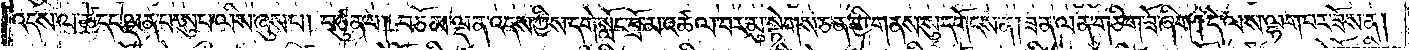འདས་ལ་ཚེ་དང་ལྡན་པ་ཨུ་པ་ལིས་ཞུས་པ། བཙུན་པ། བཅོམ་ལྡན་འདས་ཀྱིས་དགེ་སློང་བྲོ་མ་འཚལ་བར་མུ་སྟེགས་ཅན་གྱི་གནས་སུ་དགོངས་ན། ཟན་ལན་གཅིག་ཟོ་ཞིག །དེ་ལས་ལྷག་པར་ཟོས་ན།
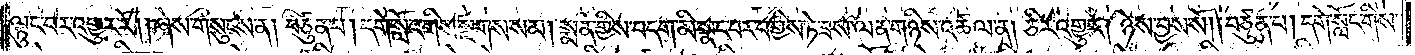ལྟུང་བར་འགྱུར་རོ། །ཞེས་གསུངས་ན། བཙུན་པ། དགེ་སློང་གིས་སྔགས་སམ། སྨན་གྱིས་བདག་མི་སྣང་བར་བགྱིས་ཏེ་ཟས་ལན་གཉིས་འཚལ་ན། ཅིར་འགྱུར། ཉེས་བྱས་སོ། །བཙུན་པ། དགེ་སློང་གིས་
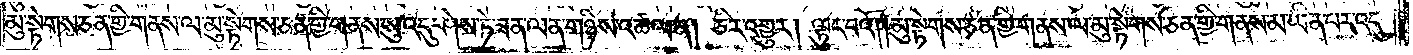མུ་སྟེགས་ཅན་གྱི་གནས་ལ་མུ་སྟེགས་ཅན་གྱི་གནས་སུ་འདུ་ཤེས་ཏེ་ཟན་ལན་གཉིས་འཚལ་ན། ཅིར་འགྱུར། ལྟུང་བའོ། །མུ་སྟེགས་ཅན་གྱི་གནས་ལ་མུ་སྟེགས་ཅན་གྱི་གནས་མ་ཡིན་པར་འདུ་
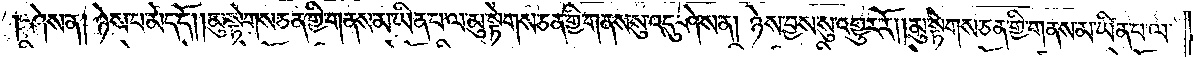།ཤེས་ན། ཉེས་པ་མེད་དོ། །མུ་སྟེགས་ཅན་གྱི་གནས་མ་ཡིན་པ་ལ་མུ་སྟེགས་ཅན་གྱི་གནས་སུ་འདུ་ཤེས་ན། ཉེས་བྱས་སུ་འགྱུར་རོ། །མུ་སྟེགས་ཅན་གྱི་གནས་མ་ཡིན་པ་ལ་
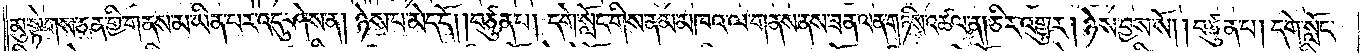མུ་སྟེགས་ཅན་གྱི་གནས་མ་ཡིན་པར་འདུ་ཤེས་ན། ཉེས་པ་མེད་དོ། །བཙུན་པ། དགེ་སློང་གིས་ནམ་མཁའ་ལ་གནས་ནས་ཟན་ལན་གཉིས་འཚལ་ན། ཅིར་འགྱུར། ཉེས་བྱས་སོ། །བཙུན་པ། དགེ་སློང་
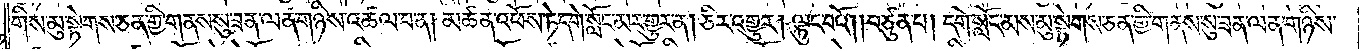གིས་མུ་སྟེགས་ཅན་གྱི་གནས་སུ་ཟན་ལན་གཉིས་འཚལ་བ་ན། མཚན་འཕོས་ཏེ་དགེ་སློང་མར་གྱུར་ན། ཅིར་འགྱུར། ལྟུང་བའོ། །བཙུན་པ། དགེ་སློང་མས་མུ་སྟེགས་ཅན་གྱི་གནས་སུ་ཟན་ལན་གཉིས་
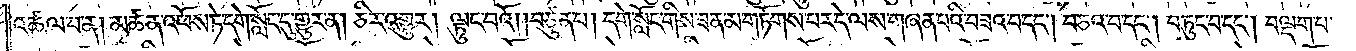འཚལ་བ་ན། མཚན་འཕོས་ཏེ་དགེ་སློང་དུ་གྱུར་ན། ཅིར་འགྱུར། ལྟུང་བའོ། །བཙུན་པ། དགེ་སློང་གིས་ཟན་མ་གཏོགས་པར་དེ་ལས་གཞན་པའི་བཟའ་བ་དང༌། བཅའ་བ་དང༌། བཏུང་བ་དང༌། བལྡག་པ་
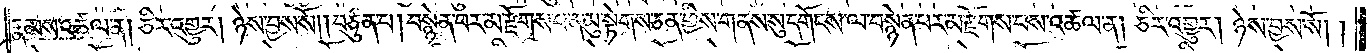རྣམས་འཚལ་ན། ཅིར་འགྱུར། ཉེས་བྱས་སོ། །བཙུན་པ། བསྙེན་པར་མ་རྫོགས་པ་ན་མུ་སྟེགས་ཅན་གྱིས་གནས་སུ་དགོངས་ལ་བསྙེན་པར་མ་རྫོགས་པས་འཚལ་ན། ཅིར་འགྱུར། ཉེས་བྱས་སོ། །
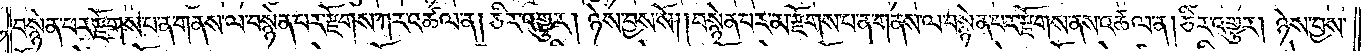བསྙེན་པར་རྫོགས་པ་ན་གནས་ལ་བསྙེན་པར་རྫོགས་ཀར་འཚལ་ན། ཅིར་འགྱུར། ཉེས་བྱས་སོ། །བསྙེན་པར་མ་རྫོགས་པ་ན་གནས་ལ་བསྙེན་པར་རྫོགས་ནས་འཚལ་ན། ཅིར་འགྱུར། ཉེས་བྱས་
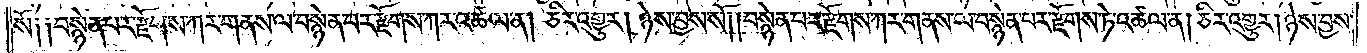སོ༑ ༑བསྙེན་པར་རྫོགས་ཀར་གནས་ལ་བསྙེན་པར་རྫོགས་ཀར་འཚལ་ན། ཅིར་འགྱུར། ཉེས་བྱས་སོ། །བསྙེན་པར་རྫོགས་ཀར་གནས་ལ་བསྙེན་པར་རྫོགས་ཏེ་འཚལ་ན། ཅིར་འགྱུར། ཉེས་བྱས་
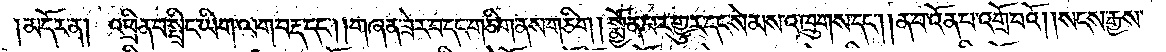།མདོར་ན། འཕྲིན་བ་སྤྲིང་ཡིག་ལག་བརྡ་དང༌། །གཞན་ཟེར་བ་དང་གཅིག་ནས་གཅིག །སྨྱོན་པར་གྱུར་དང་སེམས་འཁྲུགས་དང༌། ན་བ་འོན་པ་འགྲོ་བའོ། །སངས་རྒྱས་
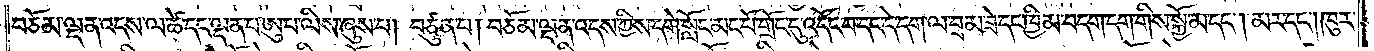བཅོམ་ལྡན་འདས་ལ་ཚེ་དང་ལྡན་པ་ཨུ་པ་ལིས་ཞུས་པ། བཙུན་པ། བཅོམ་ལྡན་འདས་ཀྱིས་དགེ་སློང་མང་པོ་གྲོང་དུ་འདོང་བ་དང་དེ་དག་ལ་བྲམ་ཟེ་དང་ཁྱིམ་བདག་དག་གིས་སྐྱོ་མ་དང༌། མར་དང༌། ཁུར་
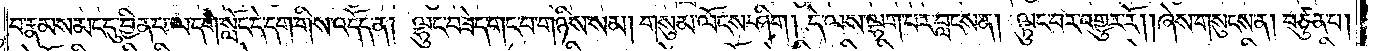བ་རྣམས་མང་དུ་བྱིན་པ་ལ་དགེ་སློང་དེ་དག་གིས་འདོད་ན། ལྷུང་བཟེད་གང་བ་གཉིས་སམ། གསུམ་ལོངས་ཤིག། དེ་ལས་ལྷག་པར་བླངས་ན། ལྟུང་བར་འགྱུར་རོ། །ཞེས་གསུངས་ན། བཙུན་པ།
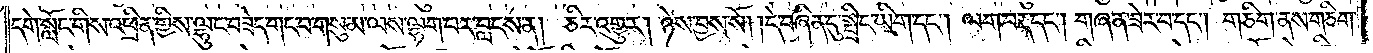དགེ་སློང་གིས་འཕྲིན་གྱིས་ལྷུང་བཟེད་གང་བ་གསུམ་ལས་ལྷག་པར་བླངས་ན། ཅིར་འགྱུར། ཉེས་བྱས་སོ། །དེ་བཞིན་དུ་སྤྲིང་ཡིག་དང༌། ལག་བརྡ་དང༌། གཞན་ཟེར་བ་དང༌། གཅིག་ནས་གཅིག་
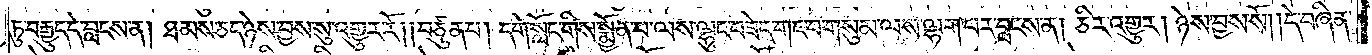ཏུ་བརྒྱུད་དེ་བླངས་ན། ཐམས་ཅད་ཉེས་བྱས་སུ་འགྱུར་རོ། །བཙུན་པ། དགེ་སློང་གིས་སྨྱོན་པ་ལས་ལྷུང་བཟེད་གང་བ་གསུམ་ལས་ལྷག་པར་བླངས་ན། ཅིར་འགྱུར། ཉེས་བྱས་སོ། །དེ་བཞིན་
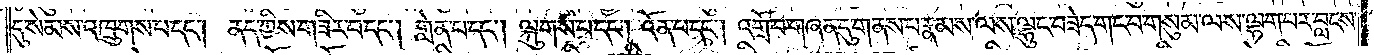དུ་སེམས་འཁྲུགས་པ་དང༌། ནད་ཀྱིས་གཟིར་བ་དང༌། གླེན་པ་དང༌། ལྐུགས་པ་དང༌། འོན་པ་དང༌། འགྲོ་བ་གཞན་དུ་གནས་པ་རྣམས་ལས་ལྷུང་བཟེད་གང་བ་གསུམ་ལས་ལྷག་པར་བླངས་
